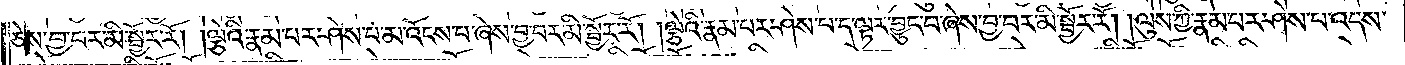ཅེས་བྱ་བར་མི་སྦྱོར་རོ། །ལྕེའི་རྣམ་པར་ཤེས་པ་མ་འོངས་པ་ཞེས་བྱ་བར་མི་སྦྱོར་རོ། །ལྕེའི་རྣམ་པར་ཤེས་པ་ད་ལྟར་བྱུང་བ་ཞེས་བྱ་བར་མི་སྦྱོར་རོ། །ལུས་ཀྱི་རྣམ་པར་ཤེས་པ་འདས་
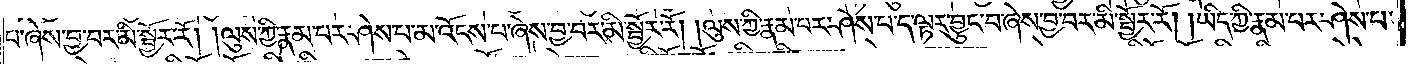པ་ཞེས་བྱ་བར་མི་སྦྱོར་རོ། །ལུས་ཀྱི་རྣམ་པར་ཤེས་པ་མ་འོངས་པ་ཞེས་བྱ་བར་མི་སྦྱོར་རོ། །ལུས་ཀྱི་རྣམ་བར་ཤེས་པ་ད་ལྟར་བྱུང་བ་ཞེས་བྱ་བར་མི་སྦྱོར་རོ། །ཡིད་ཀྱི་རྣམ་པར་ཤེས་པ་
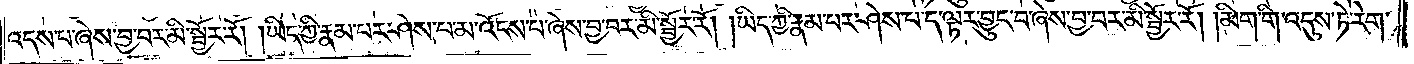འདས་པ་ཞེས་བྱ་བར་མི་སྦྱོར་རོ། །ཡིད་ཀྱི་རྣམ་པར་ཤེས་པ་མ་འོངས་པ་ཞེས་བྱ་བར་མི་སྦྱོར་རོ། །ཡིད་ཀྱི་རྣམ་པར་ཤེས་པ་ད་ལྟར་བྱུང་བ་ཞེས་བྱ་བར་མི་སྦྱོར་རོ། །མིག་གི་འདུས་ཏེ་རེག་
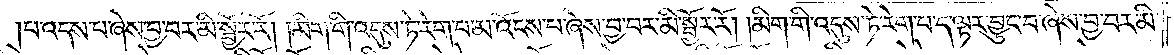པ་འདས་པ་ཞེས་བྱ་བར་མི་སྦྱོར་རོ། །མིག་གི་འདུས་ཏེ་རེག་པ་མ་འོངས་པ་ཞེས་བྱ་བར་མི་སྦྱོར་རོ། །མིག་གི་འདུས་ཏེ་རེག་པ་ད་ལྟར་བྱུང་བ་ཞེས་བྱ་བར་མི་
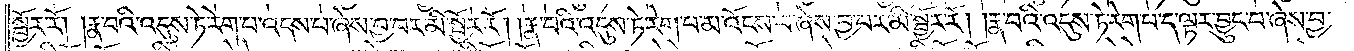སྦྱོར་རོ། །རྣ་བའི་འདུས་ཏེ་རེག་པ་འདས་པ་ཞེས་བྱ་བར་མི་སྦྱོར་རོ། །རྣ་བའི་འདུས་ཏེ་རེག་པ་མ་འོངས་པ་ཞེས་བྱ་བར་མི་སྦྱོར་རོ། །རྣ་བའི་འདུས་ཏེ་རེག་པ་ད་ལྟར་བྱུང་བ་ཞེས་བྱ་
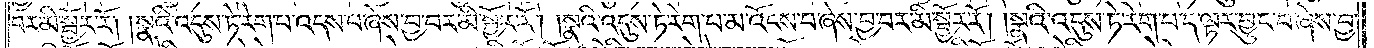བར་མི་སྦྱོར་རོ། །སྣའི་འདུས་ཏེ་རེག་པ་འདས་པ་ཞེས་བྱ་བར་མི་སྦྱོར་རོ། །སྣའི་འདུས་ཏེ་རེག་པ་མ་འོངས་པ་ཞེས་བྱ་བར་མི་སྦྱོར་རོ། །སྣའི་འདུས་ཏེ་རེག་པ་ད་ལྟར་བྱུང་བ་ཞེས་བྱ་
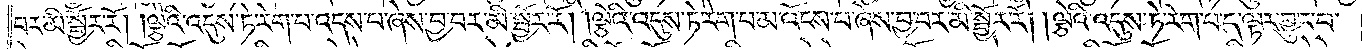བར་མི་སྦྱོར་རོ། །ལྕེའི་འདུས་ཏེ་རེག་པ་འདས་པ་ཞེས་བྱ་བར་མི་སྦྱོར་རོ། །ལྕེའི་འདུས་ཏེ་རེག་པ་མ་འོངས་པ་ཞེས་བྱ་བར་མི་སྦྱོར་རོ། །ལྕེའི་འདུས་ཏེ་རེག་པ་ད་ལྟར་བྱུང་བ་
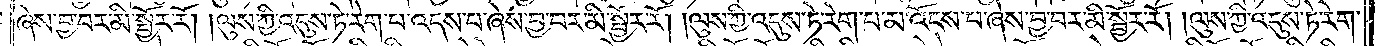ཞེས་བྱ་བར་མི་སྦྱོར་རོ། །ལུས་ཀྱི་འདུས་ཏེ་རེག་པ་འདས་པ་ཞེས་བྱ་བར་མི་སྦྱོར་རོ། །ལུས་ཀྱི་འདུས་ཏེ་རེག་པ་མ་འོངས་པ་ཞེས་བྱ་བར་མི་སྦྱོར་རོ། །ལུས་ཀྱི་འདུས་ཏེ་རེག་
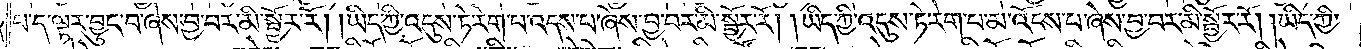པ་ད་ལྟར་བྱུང་བ་ཞེས་བྱ་བར་མི་སྦྱོར་རོ། །ཡིད་ཀྱི་འདུས་ཏེ་རེག་པ་འདས་པ་ཞེས་བྱ་བར་མི་སྦྱོར་རོ། །ཡིད་ཀྱི་འདུས་ཏེ་རེག་པ་མ་འོངས་པ་ཞེས་བྱ་བར་མི་སྦྱོར་རོ། །ཡིད་ཀྱི་
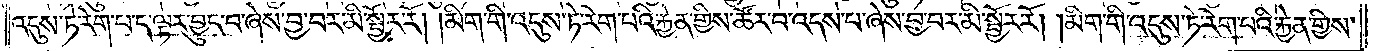འདུས་ཏེ་རེག་པ་ད་ལྟར་བྱུང་བ་ཞེས་བྱ་བར་མི་སྦྱོར་རོ། །མིག་གི་འདུས་ཏེ་རེག་པའི་རྐྱེན་གྱིས་ཚོར་བ་འདས་པ་ཞེས་བྱ་བར་མི་སྦྱོར་རོ། །མིག་གི་འདུས་ཏེ་རེག་པའི་རྐྱེན་གྱིས་
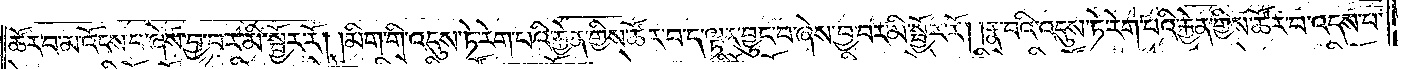ཚོར་བ་མ་འོངས་པ་ཞེས་བྱ་བར་མི་སྦྱོར་རོ། །མིག་གི་འདུས་ཏེ་རེག་པའི་རྐྱེན་གྱིས་ཚོར་བ་ད་ལྟར་བྱུང་བ་ཞེས་བྱ་བར་མི་སྦྱོར་རོ། །རྣ་བའི་འདུས་ཏེ་རེག་པའི་རྐྱེན་གྱིས་ཚོར་བ་འདས་བ་
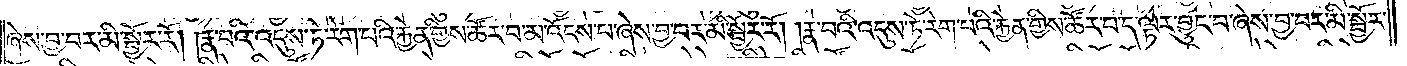ཞེས་བྱ་བར་མི་སྦྱོར་རོ། །རྣ་བའི་འདུས་ཏེ་རེག་པའི་རྐྱེན་གྱིས་ཚོར་བ་མ་འོངས་པ་ཞེས་བྱ་བར་མི་སྦྱོར་རོ། །རྣ་བའི་འདུས་ཏེ་རེག་པའི་རྐྱེན་གྱིས་ཚོར་བ་ད་ལྟར་བྱུང་བ་ཞེས་བྱ་བར་མི་སྦྱོར་
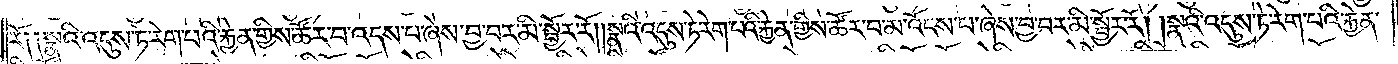རོ༑ ༑སྣའི་འདུས་ཏེ་རེག་པའི་རྐྱེན་གྱིས་ཚོར་བ་འདས་པ་ཞེས་བྱ་བར་མི་སྦྱོར་རོ། །སྣའི་འདུས་ཏེ་རེག་པའི་རྐྱེན་གྱིས་ཚོར་བ་མ་འོངས་པ་ཞེས་བྱ་བར་མི་སྦྱོར་རོ། །སྣའི་འདུས་ཏེ་རེག་པའི་རྐྱེན་
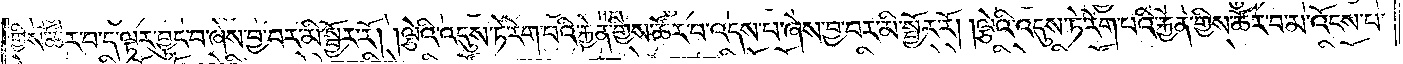གྱིས་ཚོར་བ་ད་ལྟར་བྱུང་བ་ཞེས་བྱ་བར་མི་སྦྱོར་རོ། །ལྕེའི་འདུས་ཏེ་རེག་པའི་རྐྱེན་གྱིས་ཚོར་བ་འདས་པ་ཞེས་བྱ་བར་མི་སྦྱོར་རོ། །ལྕེའི་འདུས་ཏེ་རེག་པའི་རྐྱེན་གྱིས་ཚོར་བ་མ་འོངས་པ་
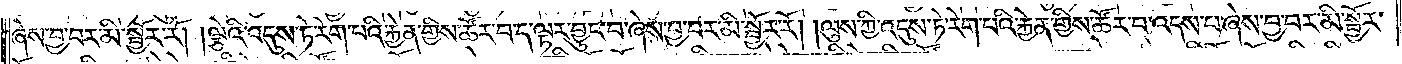ཞེས་བྱ་བར་མི་སྦྱོར་རོ། །ལྕེའི་འདུས་ཏེ་རེག་པའི་རྐྱེན་གྱིས་ཚོར་བ་ད་ལྟར་བྱུང་བ་ཞེས་བྱ་བར་མི་སྦྱོར་རོ། །ལུས་ཀྱི་འདུས་ཏེ་རེག་པའི་རྐྱེན་གྱིས་ཚོར་བ་འདས་པ་ཞེས་བྱ་བར་མི་སྦྱོར་
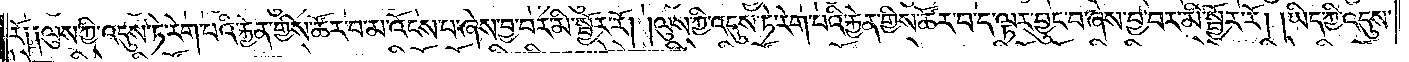རོ༑ ༑ལུས་ཀྱི་འདུས་ཏེ་རེག་པའི་རྐྱེན་གྱིས་ཚོར་བ་མ་འོངས་པ་ཞེས་བྱ་བར་མི་སྦྱོར་རོ། །ལུས་ཀྱི་འདུས་ཏེ་རེག་པའི་རྐྱེན་གྱིས་ཚོར་བ་ད་ལྟར་བྱུང་བ་ཞེས་བྱ་བར་མི་སྦྱོར་རོ། །ཡིད་ཀྱི་འདུས་
